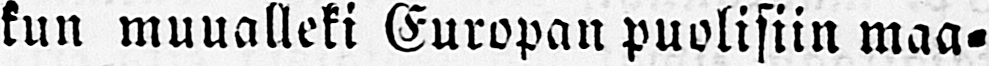kun muualleki Europan puolisiin maa-
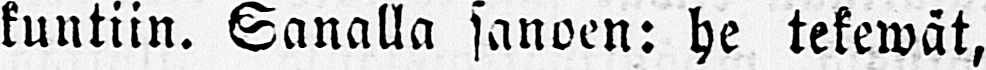kuntiin. Sanalla sanoen: he tekewät,
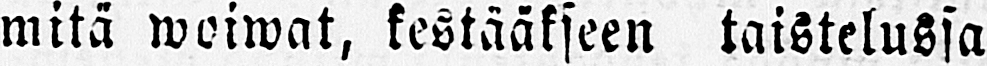mitä woiwat, kestääkseen taistelussa
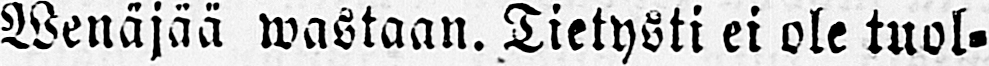Wenäjää wastaan. Tietysti ei ole tuol-
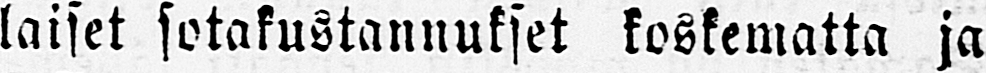laiset sotakustannukset koskematta ja
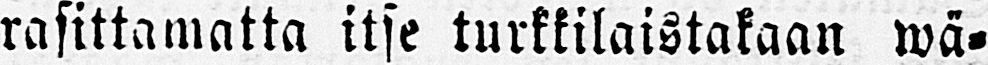rasittamatta itse turkkilaistakaan wä-
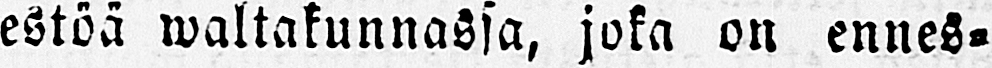estöä waltakunnassa, joka on ennes-
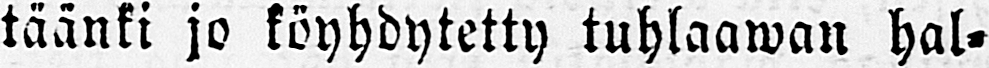täänki jo köyhdytetty tuhlaawan hal-
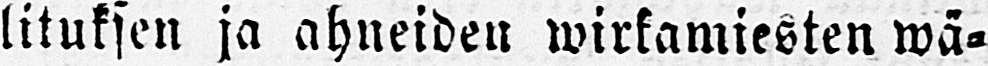lituksen ja ahneiden wä-
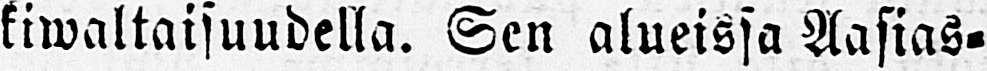kiwaltaisuudella. Sen alueissa Aasias-
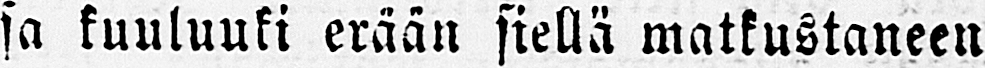sa kuuluuki erään siellä matkustaneen
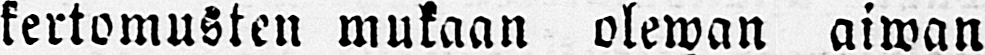kertomusten mukaan olewan aiwan
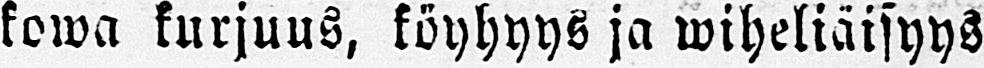kowa kurjuus, köyhyys ja wiheliäisyys
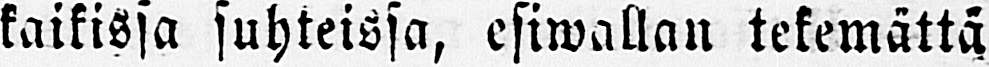kaikissa suhteissa, esiwallan tekemättä
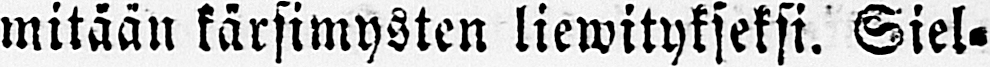mitään kärsimysten liewitykseksi. Siel-
